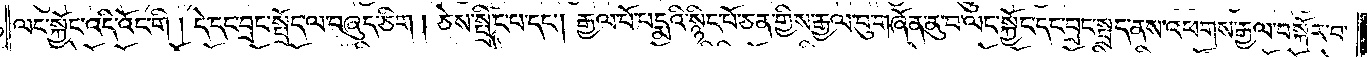ལང་སྐྱོང་འདི་འོང་གི། དེ་དང་བྲང་སྤྲོད་ལ་བཞུད་ཅིག། ཅེས་སྤྲིང་པ་དང༌། རྒྱལ་པོ་པདྨའི་སྙིང་པོ་ཅན་གྱིས་རྒྱལ་བུ་གཞོན་ནུ་བ་ལང་སྐྱོང་དང་བྲང་སྤྲད་ནས་འཕགས་རྒྱལ་བསྐོར་བ་
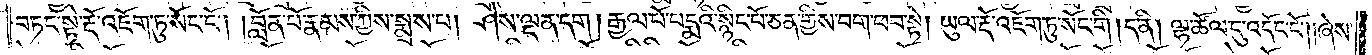བཏང་སྟེ་རྡོ་འཇོག་ཏུ་སོང་ངོ༌། །བློན་པོ་རྣམས་ཀྱིས་སྨྲས་པ། ཤེས་ལྡན་དག། རྒྱལ་པོ་པདྨའི་སྙིང་པོ་ཅན་གྱིས་བག་ཕབ་སྟེ། ཡུལ་རྡོ་འཇོག་ཏུ་སོང་གི། ད་ནི། ལྷ་ཚོལ་དུ་འདོང་ངོ༌། །ཞེས་
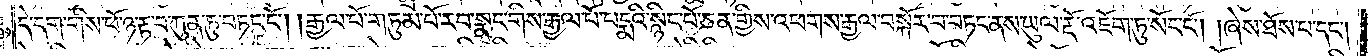དེ་དག་གིས་ཕོ་ཉ་རྟ་བ་ཀུན་ཏུ་བཏང་ངོ༌། །རྒྱལ་པོ་གཏུམ་པོ་རབ་སྣང་གིས་རྒྱལ་པོ་པདྨའི་སྙིང་པོ་ཅན་གྱིས་འཕགས་རྒྱལ་བསྐོར་བ་བཏང་ནས་ཡུལ་རྡོ་འཇོག་ཏུ་སོང་ངོ༌། །ཞེས་ཐོས་པ་དང༌།
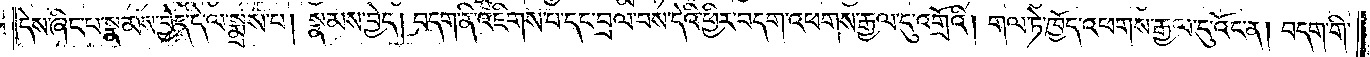དེས་ཞིང་པ་སྣམས་བྱེད་དེ་ལ་སྨྲས་པ། སྣམས་བྱེད། བདག་ནི་འཇིགས་པ་དང་བྲལ་བས་དེའི་ཕྱིར་བདག་འཕགས་རྒྱལ་དུ་འགྲོའི། གལ་ཏེ་ཁྱོད་འཕགས་རྒྱལ་དུ་འོང་ན། བདག་གི་
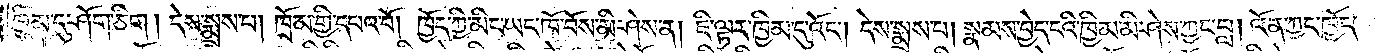ཁྱིམ་དུ་ཤོག་ཅིག། དེས་སྨྲས་པ། ཁྲོམ་གྱི་དཔའ་བོ། ཁྱོད་ཀྱི་མིང་ཡང་ཁོ་བོས་མི་ཤེས་ན། ཇི་ལྟར་ཁྱིམ་དུ་འོངས། དེས་སྨྲས་པ། སྣམས་བྱེད་ངའི་ཁྱིམ་མི་ཤེས་ཀྱང་བླ། འོན་ཀྱང་ཁྱོད་
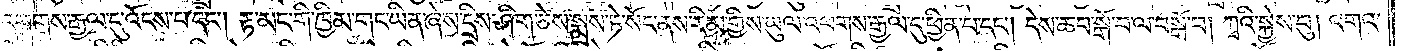འཕགས་རྒྱལ་དུ་འོངས་པ་དང༌། རྟ་མང་གི་ཁྱིམ་གང་ཡིན་ཞེས་དྲིས་ཤིག་ཅེས་སྨྲས་ཏེ་སོང་ནས་རིམ་གྱིས་ཡུལ་འཕགས་རྒྱལ་དུ་ཕྱིན་པ་དང༌། དེས་ཆབ་སྒོ་བ་ལ་བསྒོ་བ། ཀྭའི་སྐྱེས་བུ། འགའ་
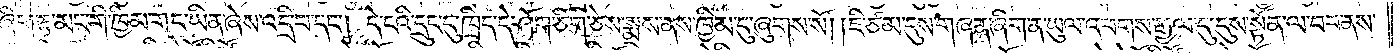ཞིག་རྟ་མང་གི་ཁྱིམ་གང་ཡིན་ཞེས་འདྲི་བ་དང༌། དེ་ངའི་དྲུང་དུ་ཁྲིད་དེ་ཤོག་ཅིག་ཅེས་སྨྲས་ནས་ཁྱིམ་དུ་ཞུགས་སོ། །ཇི་ཙམ་དུས་གཞན་ཞིག་ན་ཡུལ་འཕགས་རྒྱལ་དུ་དུས་སྟོན་ལ་བབ་ནས་
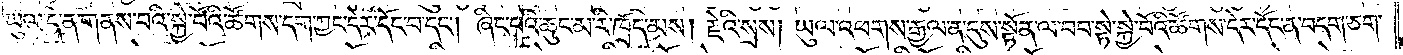ཡུལ་དེ་ན་གནས་བའི་སྐྱེ་བོའི་ཚོགས་དག་ཀྱང་དེར་དོང་བ་དང༌། ཞིང་བའི་ཆུང་མ་རི་ཁྲོད་མས། རྗེའི་སྲས། ཡུལ་འཕགས་རྒྱལ་ན་དུས་སྟོན་ལ་བབ་སྟེ་སྐྱེ་བོའི་ཚོགས་དེར་དོང་ན་བདག་ཅག་
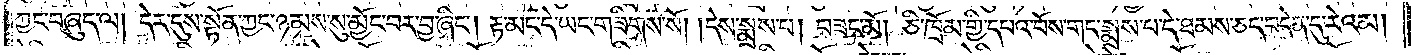ཀྱང་བཞུད་ལ། དེར་དུས་སྟོན་ཀྱང་ཉམས་སུ་མྱོང་བར་བྱ་ཞིང༌། རྟ་མང་དེ་ཡང་གཟིགས་སོ། །དེས་སྨྲས་པ། བཟང་མོ། ཅི་ཁྲོམ་གྱི་དཔའ་བོས་གང་སྨྲས་པ་དེ་ཐམས་ཅད་བདེན་དུ་རེའམ།
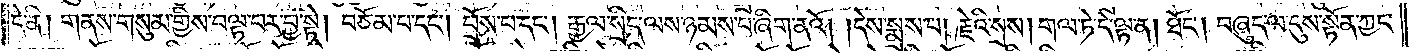དེ་ནི། གནས་གསུམ་གྱིས་བལྟ་བར་བྱ་སྟེ། བཅོམ་པ་དང༌། བྲོས་པ་དང༌། རྒྱལ་སྲིད་ལས་ཉམས་པ་ཞིག་ནའོ། །དེས་སྨྲས་པ། རྗེའི་སྲས། གལ་ཏེ་དེ་ལྟ་ན། ཐོང༌། བཞུད་ལ་དུས་སྟོན་ཀྱང་
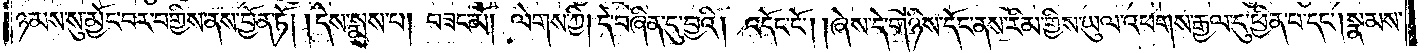ཉམས་སུ་མྱོང་བར་བགྱིས་ནས་བྱོན་ཏོ། །དེས་སྨྲས་པ། བཟང་མོ། །ལེགས་ཀྱི། དེ་བཞིན་དུ་བྱའི། འདོང་ངོ༌། །ཞེས་དེ་གཉིས་དོང་ནས་རིམ་གྱིས་ཡུལ་འཕགས་རྒྱལ་དུ་ཕྱིན་པ་དང༌། སྣམས་
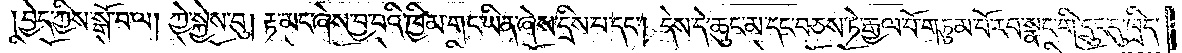བྱེད་ཀྱིས་སྒོ་བ་ལ། ཀྱེ་སྐྱེས་བུ། རྟ་མང་ཞེས་བྱ་བའི་ཁྱིམ་གང་ཡིན་ཞེས་དྲིས་པ་དང༌། དེས་དེ་ཆུང་མ་དང་བཅས་ཏེ་རྒྱལ་པོ་གཏུམ་པོ་རབ་སྣང་གི་དྲུང་དུ་ཁྲིད་
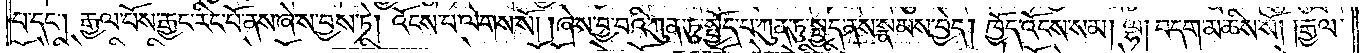པ་དང༌། རྒྱལ་པོས་རྒྱང་རིང་པོ་ནས་ཞེས་བྱས་ཏེ། འོངས་པ་ལེགས་སོ། །ཞེས་བྱ་བའི་ཀུན་ཏུ་སྤྱོད་པ་ཀུན་ཏུ་སྤྱད་ནས་སྣམས་བྱེད། ཁྱོད་འོངས་སམ། ལྷ། བདག་མཆིས་སོ། །རྒྱལ་
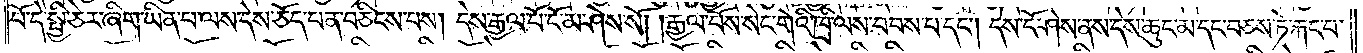པོ་དེ་སྤྱི་ཅེར་ཞིག་ཡིན་པ་ལས་དེས་ཅོད་པ་ན་བཅིངས་པས། དེས་རྒྱལ་པོ་ངོ་མ་ཤེས་སོ། །རྒྱལ་པོས་སེང་གེའི་ཁྲི་ལས་བབས་པ་དང༌། དེས་ངོ་ཤེས་ནས་དེས་ཆུང་མ་དང་བཅས་ཏེ་རྐང་པ་
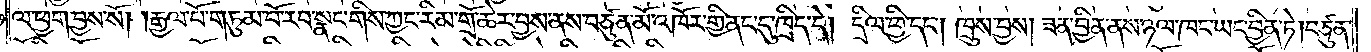ལ་ཕྱག་བྱས་སོ། །རྒྱལ་པོ་གཏུམ་པོ་རབ་སྣང་གིས་ཀྱང་རིམ་གྲོ་ཆེར་བྱས་ནས་བཙུན་མོ་འཁོར་གྱི་ནང་དུ་ཁྲིད་དེ། དྲིལ་ཕྱི་དང༌། ཁྲུས་བྱས། ཟན་བྱིན་ནས་ཉལ་ཁང་ཡང་བྱིན་ཏེ། བཙུན་
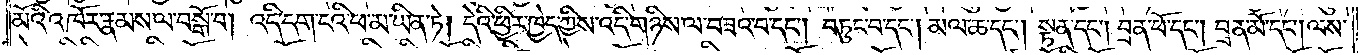མོའི་འཁོར་རྣམས་ལ་བསྒོ་བ། འདི་དག་ངའི་ཕ་མ་ཡིན་ཏེ། དེའི་ཕྱིར་ཁྱེད་ཀྱིས་འདི་གཉིས་ལ་བཟའ་བ་དང༌། བཏུང་བ་དང༌། མལ་ཆ་དང༌། སྟན་དང༌། བྲན་ཕོ་དང༌། བྲན་མོ་དང༌། ལས་
